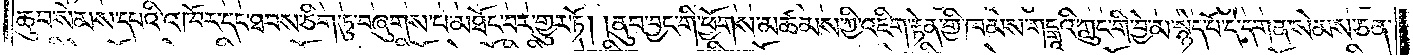ཆུབ་སེམས་དཔའི་འཁོར་དང་ཐབས་ཅིག་ཏུ་བཞུགས་པ་མཐོང་བར་གྱུར་ཏོ། །ནུབ་བྱང་གི་ཕྱོགས་མཚམས་ཀྱི་འཇིག་རྟེན་གྱི་ཁམས་གངྒཱའི་ཀླུང་གི་བྱེ་མ་སྙེད་པོ་དེ་དག་ན་སེམས་ཅན་
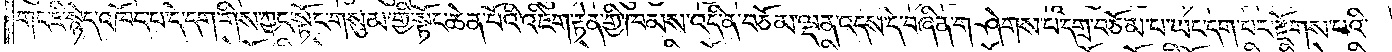གང་ཇི་སྙེད་འཁོད་པ་དེ་དག་གིས་ཀྱང་སྟོང་གསུམ་གྱི་སྟོང་ཆེན་པོའི་འཇིག་རྟེན་གྱི་ཁམས་འདི་ན་བཅོམ་ལྡན་འདས་དེ་བཞིན་གཤེགས་པ་དགྲ་བཅོམ་པ་ཡང་དག་པར་རྫོགས་པའི་
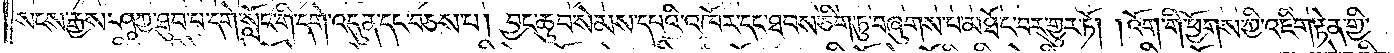སངས་རྒྱས་ཤཱཀྱ་ཐུབ་པ་དགེ་སློང་གི་དགེ་འདུན་དང་བཅས་པ། བྱང་ཆུབ་སེམས་དཔའི་འཁོར་དང་ཐབས་ཅིག་ཏུ་བཞུགས་པ་མཐོང་བར་གྱུར་ཏོ། །འོག་གི་ཕྱོགས་ཀྱི་འཇིག་རྟེན་གྱི་
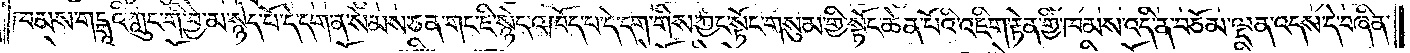ཁམས་གངྒཱའི་ཀླུང་གི་བྱེ་མ་སྙེད་པོ་དེ་དག་ན་སེམས་ཅན་གང་ཇི་སྙེད་འཁོད་པ་དེ་དག་གིས་ཀྱང་སྟོང་གསུམ་གྱི་སྟོང་ཆེན་པོའི་འཇིག་རྟེན་གྱི་ཁམས་འདི་ན་བཅོམ་ལྡན་འདས་དེ་བཞིན་
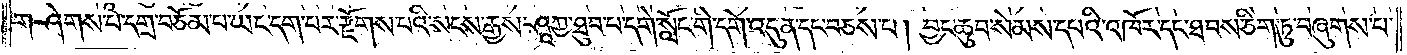གཤེགས་པ་དགྲ་བཅོམ་པ་ཡང་དག་པར་རྫོགས་པའི་སངས་རྒྱས་ཤཱཀྱ་ཐུབ་པ་དགེ་སློང་གི་དགེ་འདུན་དང་བཅས་པ། བྱང་ཆུབ་སེམས་དཔའི་འཁོར་དང་ཐབས་ཅིག་ཏུ་བཞུགས་པ་
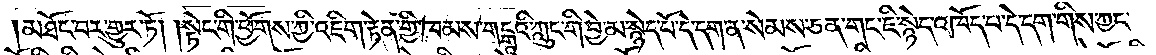མཐོང་བར་གྱུར་ཏོ། །སྟེང་གི་ཕྱོགས་ཀྱི་འཇིག་རྟེན་གྱི་ཁམས་གངྒཱའི་ཀླུང་གི་བྱེ་མ་སྙེད་པོ་དེ་དག་ན་སེམས་ཅན་གང་ཇི་སྙེད་འཁོད་པ་དེ་དག་གིས་ཀྱང་
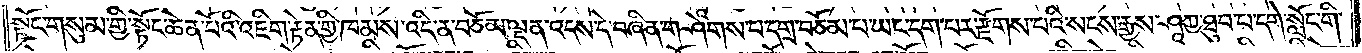སྟོང་གསུམ་གྱི་སྟོང་ཆེན་པོའི་འཇིག་རྟེན་གྱི་ཁམས་འདི་ན་བཅོམ་ལྡན་འདས་དེ་བཞིན་གཤེགས་པ་དགྲ་བཅོམ་པ་ཡང་དག་པར་རྫོགས་པའི་སངས་རྒྱས་ཤཱཀྱ་ཐུབ་པ་དགེ་སློང་གི་
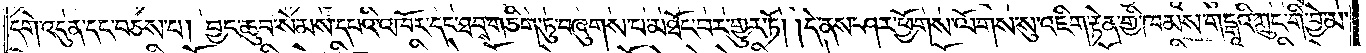དགེ་འདུན་དང་བཅས་པ། བྱང་ཆུབ་སེམས་དཔའི་འཁོར་དང་ཐབས་ཅིག་ཏུ་བཞུགས་པ་མཐོང་བར་གྱུར་ཏོ། །དེ་ནས་ཤར་ཕྱོགས་ལོགས་སུ་འཇིག་རྟེན་གྱི་ཁམས་གངྒཱའི་ཀླུང་གི་བྱེ་མ་
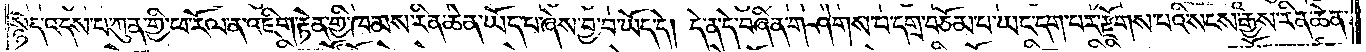སྙེད་འདས་པ་ཀུན་གྱི་ཕ་རོལ་ན་འཇིག་རྟེན་གྱི་ཁམས་རིན་ཆེན་ཡོད་པ་ཞེས་བྱ་བ་ཡོད་དེ། དེ་ན་དེ་བཞིན་གཤེགས་པ་དགྲ་བཅོམ་པ་ཡང་དག་པར་རྫོགས་པའི་སངས་རྒྱས་རིན་ཆེན་
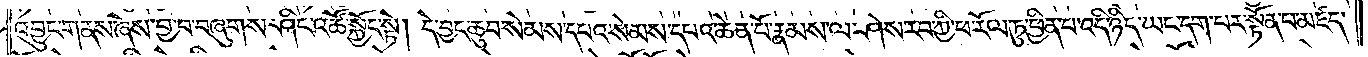འབྱུང་གནས་ཞེས་བྱ་བ་བཞུགས་ཤིང་འཚོ་སྐྱོང་སྟེ། དེ་བྱང་ཆུབ་སེམས་དཔའ་སེམས་དཔའ་ཆེན་པོ་རྣམས་ལ་ཤེས་རབ་ཀྱི་ཕ་རོལ་ཏུ་ཕྱིན་པ་འདི་ཉིད་ཡང་དག་པར་སྟོན་པ་མཛད་
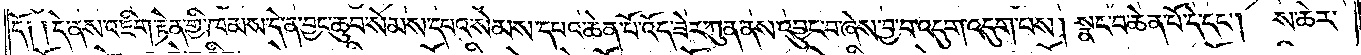དོ༑ །དེ་ནས་འཇིག་རྟེན་གྱི་ཁམས་དེ་ན་བྱང་ཆུབ་སེམས་དཔའ་སེམས་དཔའ་ཆེན་པོ་འོད་ཟེར་ཀུན་ནས་འབྱུང་བ་ཞེས་བྱ་བ་འདུག་འདུག་པས། སྣང་བ་ཆེན་པོ་དེ་དང༌། ས་ཆེར་
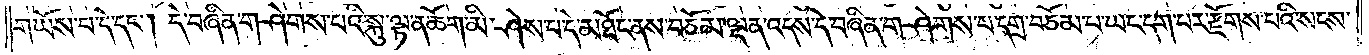གཡོས་པ་དེ་དང༌། དེ་བཞིན་གཤེགས་པའི་སྐུ་ལྟ་ན་ཆོག་མི་ཤེས་པ་དེ་མཐོང་ནས་བཅོམ་ལྡན་འདས་དེ་བཞིན་གཤེགས་པ་དགྲ་བཅོམ་པ་ཡང་དག་པར་རྫོགས་པའི་སངས་
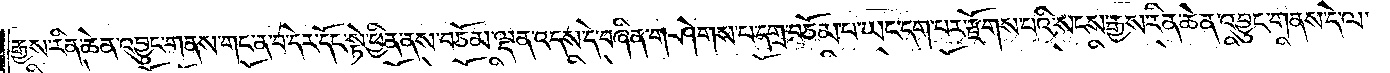རྒྱས་རིན་ཆེན་འབྱུང་གནས་གང་ན་བ་དེར་དོང་སྟེ་ཕྱིན་ནས་བཅོམ་ལྡན་འདས་དེ་བཞིན་གཤེགས་ལ་དགྲ་བཅོམ་པ་ཡང་དག་པར་རྫོགས་པའི་སངས་རྒྱས་རིན་ཆེན་འབྱུང་གནས་དེ་ལ་
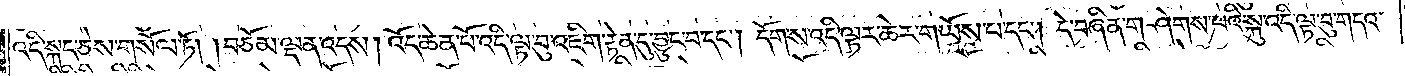འདི་སྐད་ཅེས་གསོལ་ཏོ། །བཅོམ་ལྡན་འདས། འོད་ཆེན་པོ་འདི་ལྟ་བུ་འཇིག་རྟེན་དུ་བྱུང་བ་དང༌། དོག་ས་འདི་ལྟར་ཆེར་གཡོས་པ་དང༌། དེ་བཞིན་གཤེགས་པའི་སྐུ་འདི་ལྟ་བུ་གདའ་
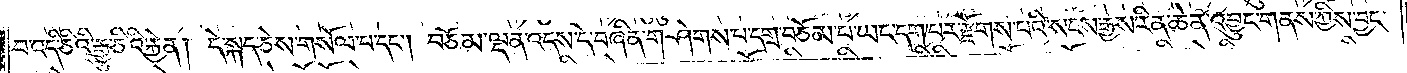བ་འདི་ཅིའི་རྒྱུ་ཅིའི་རྐྱེན། དེ་སྐད་ཅེས་གསོལ་པ་དང༌། བཅོམ་ལྡན་འདས་དེ་བཞིན་གཤེགས་པ་དགྲ་བཅོམ་པ་ཡང་དག་པར་རྫོགས་པའི་སངས་རྒྱས་རིན་ཆེན་འབྱུང་གནས་ཀྱིས་བྱང་
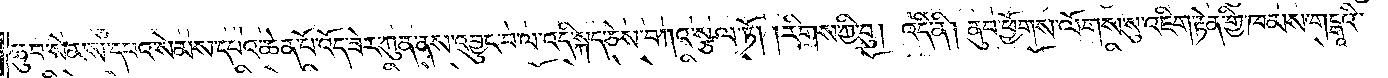ཆུབ་སེམས་དཔའ་སེམས་དཔའ་ཆེན་པོ་འོད་ཟེར་ཀུན་ནས་འབྱུང་བ་ལ་འདི་སྐད་ཅེས་བཀའ་སྩལ་ཏོ། །རིགས་ཀྱི་བུ། འདི་ནི། ནུབ་ཕྱོགས་ལོགས་སུ་འཇིག་རྟེན་གྱི་ཁམས་གངྒཱའི་
